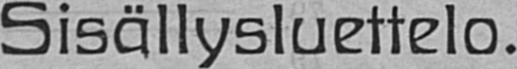Sisällysluettelo.
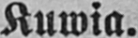Kuwia.
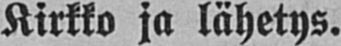Kirkko ja lähetys.
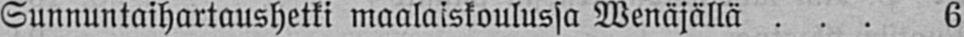Sunnuntaihartaushetki maalaiskoulussa Wenäjällä 6
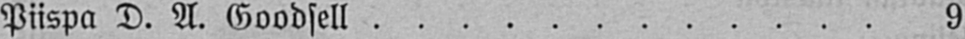Piispa D. A. Goodsell 9
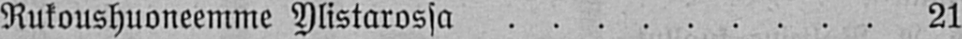Rukoushuoneemme Ylistarossa 21
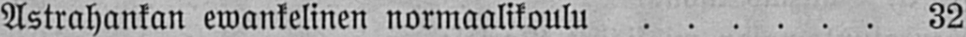Astrahankan ewankelinen normaalikoulu 32
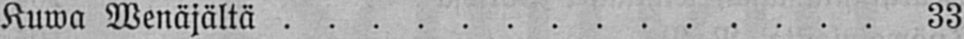Kuwa Wenäjältä 33
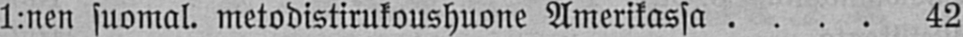1:nen suomal, metodistirukoushuone Amerikassa 42
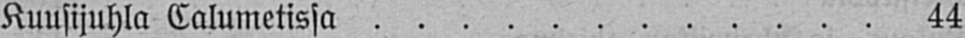Kuusijuhla Calumetissa 44
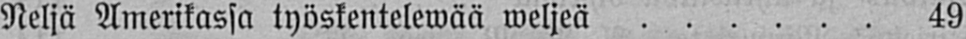Neljä Amerikassa työskentelewää weljeä 49
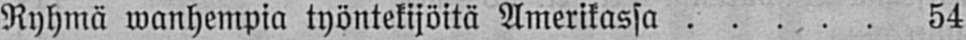Ryhmä wanhempia työntekijöitä Amerikassa 54
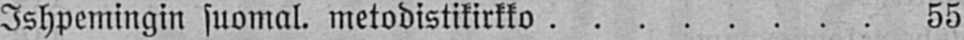Ishpemingin suomal. metodistikirkko 55
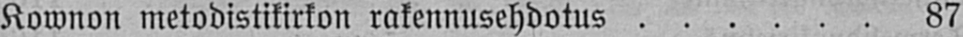Kownon metodistikirkon rakennusehdotus 87
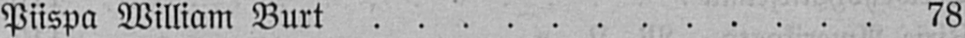Piispa William Burt 78
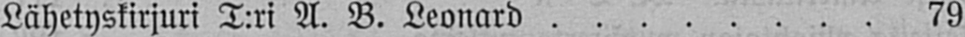Lähetyskirjuri T:ri A. B. Leonard 79
